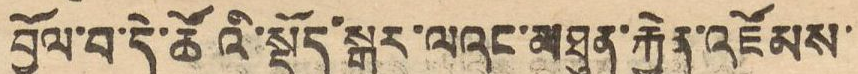བྱོལ་བ་དེ་ཚོའི་སྡོད་སྒར་ལའང་མཐུན་རྐྱེན་འཛོམས་
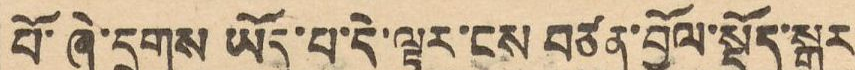པོ་ཞེ་དྲགས ཡོད་པ་དེ་ལྟར་ངས བརྩན་བྱོལ་སྡོད་སྒར
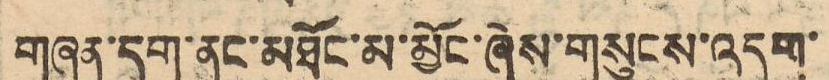གཞན་དག་ནང་མཐོང་མ་མྱོང་ཞེས་གསུངས་འདུག་
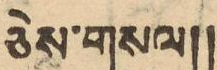ཅེས་གསལ།།
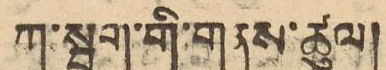ཀ་སྦུག་གི་གནས་ཚུལ།
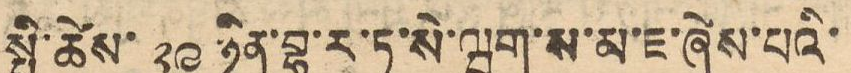སྤྱི་ཚེས་ ༢༩ ཉིན་བྷ་རྭ་ཏྭ་སེ་ཝག་ས་མ་ཇ་ཞེས་པའི་
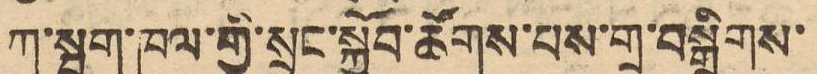ཀ་སྦུག་ཁུལ་གྱི་སྲུང་སྐྱོབ་ཚོགས་པས་གྲ་བསྒྲིགས་
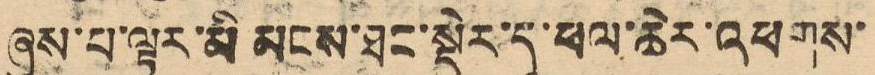ཞུས་པ་ལྟར་མི མངས་ཐང་སྡེར་དུ་ཕལ་ཆེར་འཕགས་
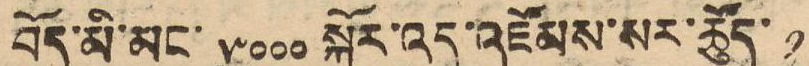བོད་མི་མང་ ༥༠༠༠ སྐོར་འདུ་འཛོམས་སར་ཚོུད་ ༡
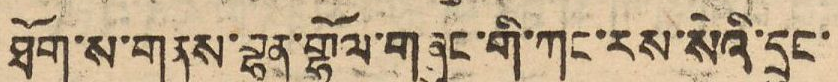ཐོག་ས་གནས་བྷན་གྷོལ་གཞུང་གི་ཀང་རས་སེའི་དྲུང་
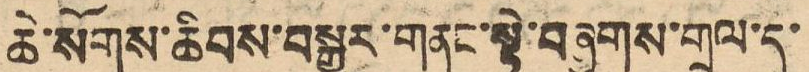ཆེ་སོགས་ཆིབས་བསྒྱུར་གནང་སྟེ་བཞུགས་གྲལ་དུ་
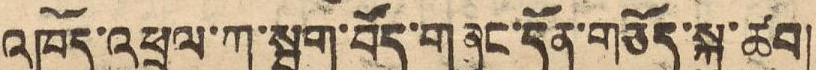འཁོད་འཕྲལ་ཀ་སྦུག་བོད་གཞུང་དོན་གཅོད་སྐུ་ཚབ།
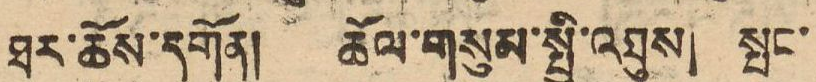ཐར་ཆོས་དགོན། ཆོལ་གསུམ་སྤྱི་འཐུས། སྤང་
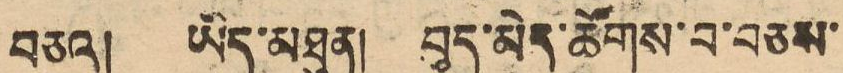བཅའ། ཡིད་མཐུན། བུད་མེད་ཚོགས་བ་བཅས་
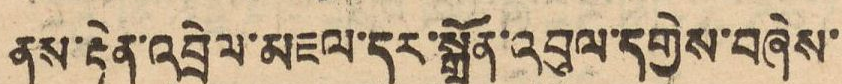ནས་རྟེན་འབྲེལ་མཇལ་དར་སྒྲོན་འབུལ་དགྱེས་བཞེས་
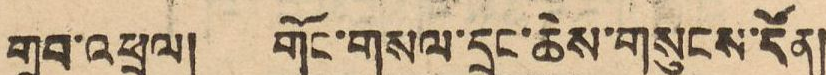གྲུབ་འཕྲལ། གོང་གསལ་དྲུང་ཆེས་གསུངས་དོན།
